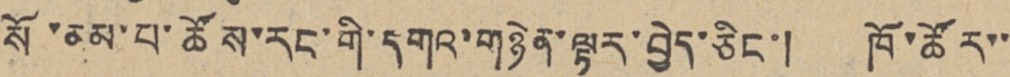སོ་ནམ་པ་ཚོས་རང་གི་དགའ་གཉེན་ལྟར་བྱེད་ཅིང་། ཁོ་ཚོར་་
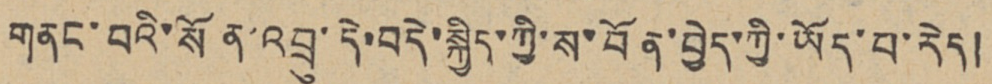གནང་བའི་སོན་འབྲུ་དེ་བདེ་སྐྱིད་ཀྱི་ས་བོན་བྱེད་ཀྱི་ཡོད་པ་རེད།
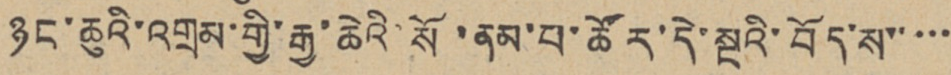ཉང་ཆུའི་འགྲམ་གྱི་རྒྱ་ཆེའི་སོ་ནམ་པ་ཚོར་དེ་སྔའི་བོད་ས་་་་་
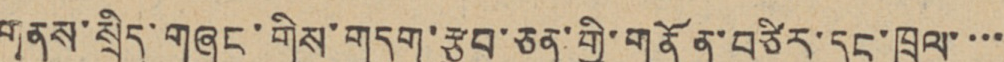གནས་སྲིད་གཞུང་གིས་གདུག་རྩུབ་ཅན་གྱི་གནོན་བཙིར་དང་ཁྲལ་་་་
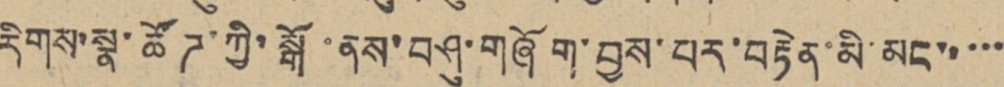རིགས་སྣ་ཚོཊ་ཀྱི་སྒོ་ནས་བཤུ་གཞོག་བྱས་པར་བརྟེན་མི་མང་་་་་
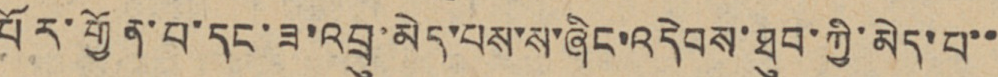པོར་གྱོན་པ་དང་ཟ་འབྲུ་མེད་པས་ས་ཞིང་འདེབས་ཐུབ་ཀྱི་མེད་པ་་
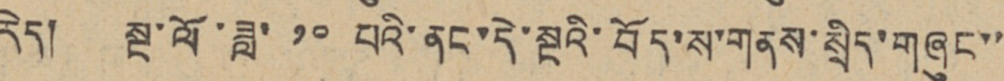རེད། སྔ་ལོ་ཟླ་ ༡༠ པའི་ནང་དེ་སྔའི་བོད་ས་གནས་སྲིད་གཞུང་་
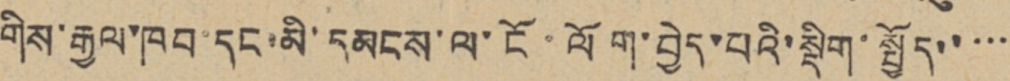གིས་རྒྱལ་ཁབ་དང་མི་དམངས་ལ་ངོ་ལོག་བྱེད་པའི་སྡིག་སྤྱོད་་་་་
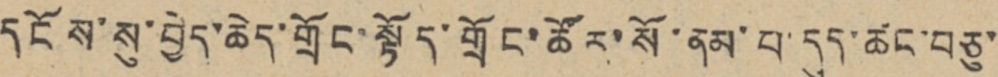དངོས་སུ་བྱེད་ཆེད་གྲོང་སྟོད་གྲོང་ཚོར་སོ་ནམ་པ་དུད་ཚང་བཅུ་་
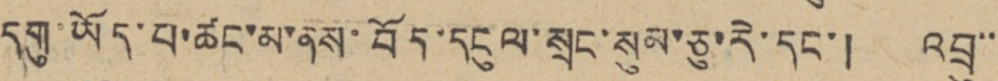དགུ་ཡོད་པ་ཚང་མ་ནས་བོད་དངུལ་སྲང་སུམ་ཅུ་རེ་དང་། འབྲུ་་་
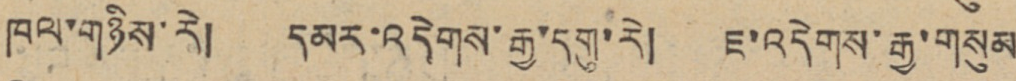ཁལ་གཉིས་རེ། དམར་འདེགས་རྒྱ་དགུ་རེ། ཇ་འདེགས་རྒྱ་གསུམ
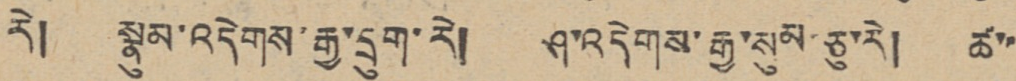རེ། སྣུམ་འདེགས་རྒྱ་དྲུག་རེ། ཤ་འདེགས་རྒྱ་སུམ་ཅུ་རེ། ཚ་་
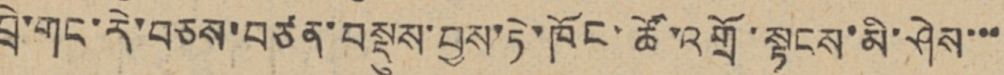བྲེ་གང་རེ་བཅས་བཙན་བསྡུས་བྱས་ཏེ་ཁོང་ཚོ་འགྲོ་སྟངས་མི་ཤེས་་་
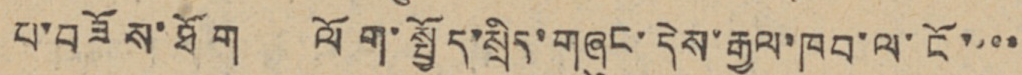པ་བཟོས་ཐོག ལོག་སྤྱོད་སྲིད་གཞུང་དེས་རྒྱལ་ཁབ་ལ་ངོ་་་་
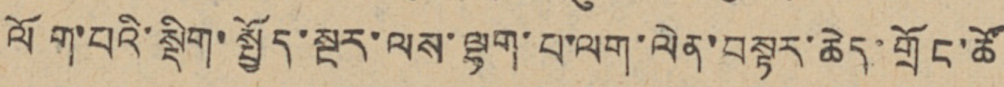ལོག་པའི་སྡིག་སྤྱོད་སྔར་ལས་ལྷག་པ་ལག་ལེན་བསྟར་ཆེད་གྲོང་ཚོ
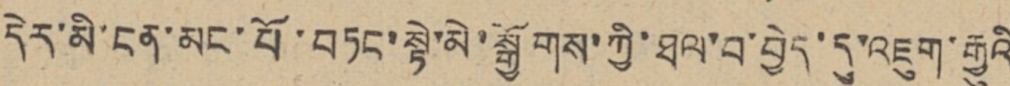དེར་མི་ངན་མང་པོ་བཏང་སྟེ་མེ་སྒྱོགས་ཀྱི་ཐལ་བ་བྱེད་དུ་འཇུག་རྒྱུའི
